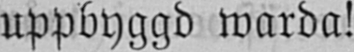uppbyggd warda!
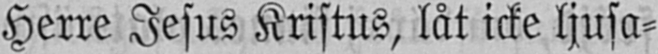Herre Jesus Kristus, låt icke ljusa-
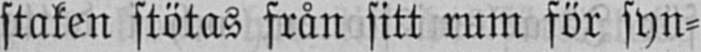staten stötas från sitt rum för syn-
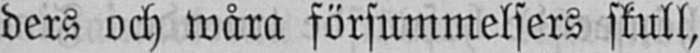ders och wåra försummelsers skull,
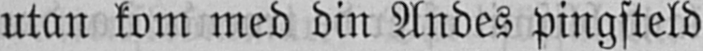utan kom med din Andes pingsteld
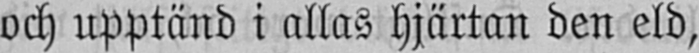och upptänd i allas hjärtan den eld,
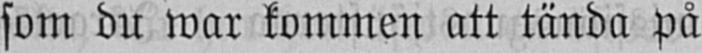som du war kommen att tända på
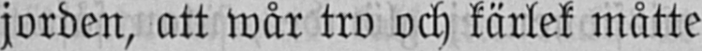jorden, att wår tro och kärlek måtte
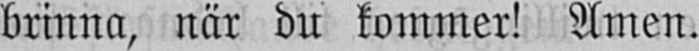brinna, när du kommer! Amen.
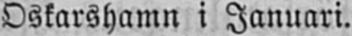Oskarshamn i Januari.
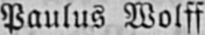Paulus Wolff.
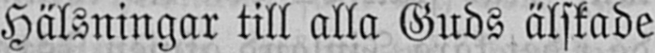Hälsningar till alla Guds älskade
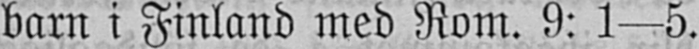barn i Finland med Rom. 9: 1 —5.
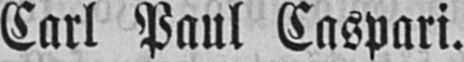Carl Paul Caspari.
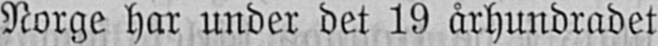Norge har under det 19 århundradet
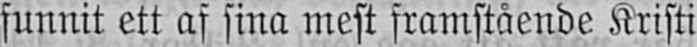funnit ett af sina mest framstående Kristi
